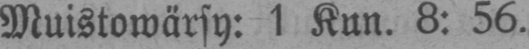Muistowärsy: 1 Kun. 8: 56.
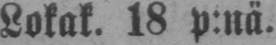Lokak. 18 p:nä.
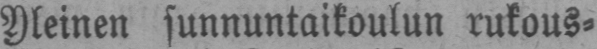Yleinen sunnuntaikoulun rukous-
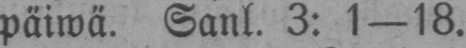päiwä. Sanl. 3: 1 — 18.
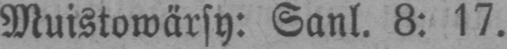Muistowärsy: Sanl. 8: 17.
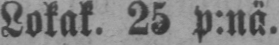Lokak. 25 p:nä.
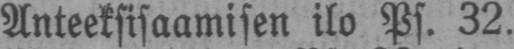Anteeksisaamisen ilo Ps. 32.
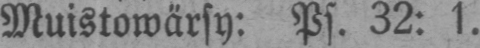Muistowärsy: Ps. 32: 1.
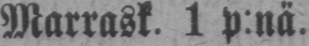Marrask. 1 p:nä.
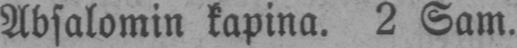Absalomin kapina. 2 Sam.
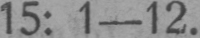15: 1—12.
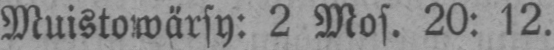Muistowärsy: 2 Mos. 20: 12.
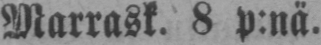Marrask. 8 p:nä.
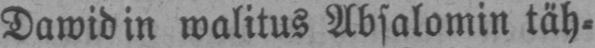Dawidin walitus Absalomin täh-
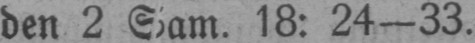den 2 Sam. 18: 24-33.
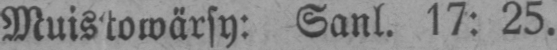Muistowärsy: Sanl. 17: 25.
